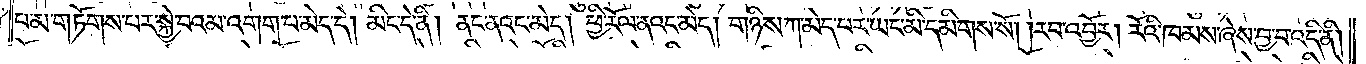པ་མ་གཏོགས་པར་སྐྱེ་བའམ་འགག་པ་མེད་དེ། མིང་དེ་ནི། ནང་ནའང་མེད། ཕྱི་རོལ་ནའང་མེད། གཉིས་ཀ་མེད་པར་ཡང་མི་དམིགས་སོ། །རབ་འབྱོར། རོའི་ཁམས་ཞེས་བྱ་བ་འདི་ནི།
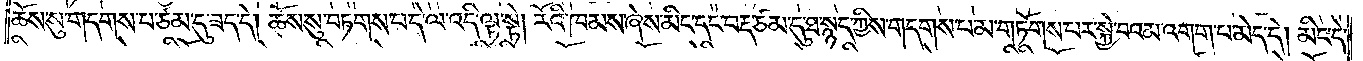ཆོས་སུ་གདགས་པ་ཙམ་དུ་ཟད་དེ། ཆོས་སུ་བཏགས་པ་དེ་ལ་འདི་ལྟ་སྟེ། རོའི་ཁམས་ཞེས་མིང་དང་བརྡ་ཙམ་དུ་ཐ་སྙད་ཀྱིས་གདགས་པ་མ་གཏོགས་པར་སྐྱེ་བའམ་འགག་པ་མེད་དེ། མིང་དེ་
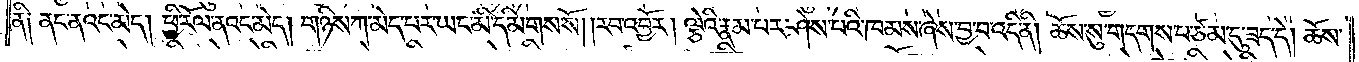ནི༑ ནང་ནའང་མེད། ཕྱི་རོལ་ནའང་མེད། གཉིས་ཀ་མེད་པར་ཡང་མི་དམིགས་སོ། །རབ་འབྱོར། ལྕེའི་རྣམ་པར་ཤེས་པའི་ཁམས་ཞེས་བྱ་བ་འདི་ནི། ཆོས་སུ་གདགས་པ་ཙམ་དུ་ཟད་དེ། ཆོས་
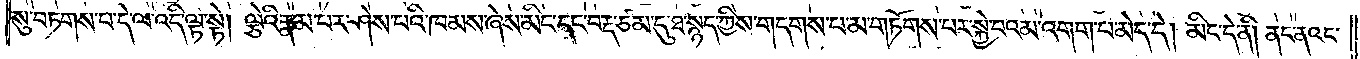སུ་བཏགས་པ་དེ་ལ་འདི་ལྟ་སྟེ། ལྕེའི་རྣམ་པར་ཤེས་པའི་ཁམས་ཞེས་མིང་དང་བརྡ་ཙམ་དུ་ཐ་སྙད་ཀྱིས་གདགས་པ་མ་གཏོགས་པར་སྐྱེ་བའམ་འགག་པ་མེད་དེ། མིང་དེ་ནི། ནང་ནའང་
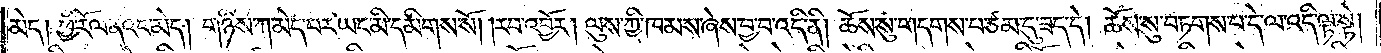མེད། ཕྱི་རོལ་ནའང་མེད། གཉིས་ཀ་མེད་པར་ཡང་མི་དམིགས་སོ། །རབ་འབྱོར། ལུས་ཀྱི་ཁམས་ཞེས་བྱ་བ་འདི་ནི། ཆོས་སུ་གདགས་པ་ཙམ་དུ་ཟད་དེ། ཆོས་སུ་བཏགས་པ་དེ་ལ་འདི་ལྟ་སྟེ།
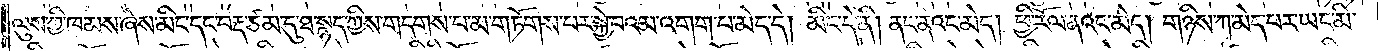ལུས་ཀྱི་ཁམས་ཞེས་མིང་དང་བརྡ་ཙམ་དུ་ཐ་སྙད་ཀྱིས་གདགས་པ་མ་གཏོགས་པར་སྐྱེ་བའམ་འགག་པ་མེད་དེ། མིང་དེ་ནི། ནང་ནའང་མེད། ཕྱི་རོལ་ནའང་མེད། གཉིས་ཀ་མེད་པར་ཡང་མི་
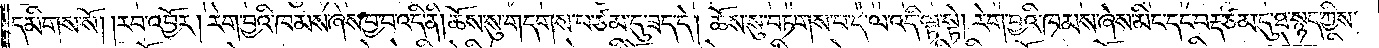དམིགས་སོ། །རབ་འབྱོར། རེག་བྱའི་ཁམས་ཞེས་བྱ་བ་འདི་ནི། ཆོས་སུ་གདགས་པ་ཙམ་དུ་ཟད་དེ། ཆོས་སུ་བཏགས་པ་དེ་ལ་འདི་ལྟ་སྟེ། རེག་བྱའི་ཁམས་ཞེས་མིང་དང་བརྡ་ཙམ་དུ་ཐ་སྙད་ཀྱིས་
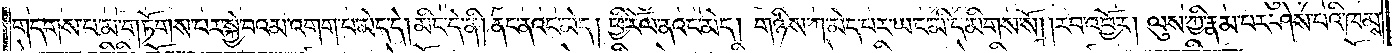གདགས་པ་མ་གཏོགས་པར་སྐྱེ་བའམ་འགག་པ་མེད་དེ། མིང་དེ་ནི། ནང་ནའང་མེད། ཕྱི་རོལ་ནའང་མེད། གཉིས་ཀ་མེད་པར་ཡང་མི་དམིགས་སོ། །རབ་འབྱོར། ལུས་ཀྱི་རྣམ་པར་ཤེས་པའི་ཁམས་
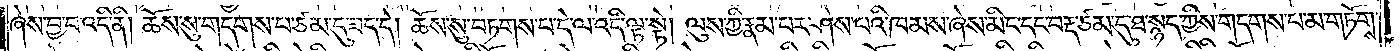ཞེས་བྱ་བ་འདི་ནི། ཆོས་སུ་གདགས་པ་ཙམ་དུ་ཟད་དེ། ཆོས་སུ་བཏགས་པ་དེ་ལ་འདི་ལྟ་སྟེ། ལུས་ཀྱི་རྣམ་པར་ཤེས་པའི་ཁམས་ཞེས་མིང་དང་བརྡ་ཙམ་དུ་ཐ་སྙད་ཀྱིས་གདགས་པ་མ་གཏོགས་
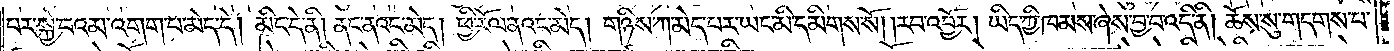པར་སྐྱེ་བའམ་འགག་པ་མེད་དེ། མིང་དེ་ནི། ནང་ནའང་མེད། ཕྱི་རོལ་ནའང་མེད། གཉིས་ཀ་མེད་པར་ཡང་མི་དམིགས་སོ། །རབ་འབྱོར། ཡིད་ཀྱི་ཁམས་ཞེས་བྱ་བ་འདི་ནི། ཆོས་སུ་གདགས་པ་
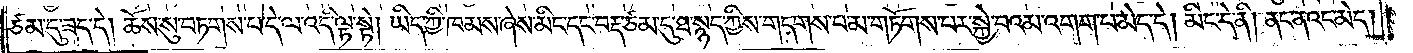ཙམ་དུ་ཟད་དེ། ཆོས་སུ་བཏགས་པ་དེ་ལ་འདི་ལྟ་སྟེ། ཡིད་ཀྱི་ཁམས་ཞེས་མིང་དང་བརྡ་ཙམ་དུ་ཐ་སྙད་ཀྱིས་གདགས་པ་མ་གཏོགས་པར་སྐྱེ་བའམ་འགག་པ་མེད་དེ། མིང་དེ་ནི། ནང་ནའང་མེད།
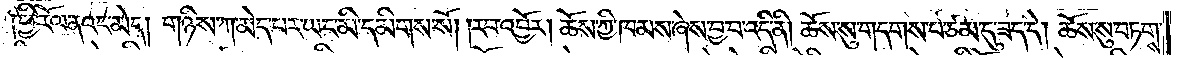ཕྱི་རོལ་ནའང་མེད། གཉིས་ཀ་མེད་པར་ཡང་མི་དམིགས་སོ། །རབ་འབྱོར། ཆོས་ཀྱི་ཁམས་ཞེས་བྱ་བ་འདི་ནི། ཆོས་སུ་གདགས་པ་ཙམ་དུ་ཟད་དེ། ཆོས་སུ་བཏགས་
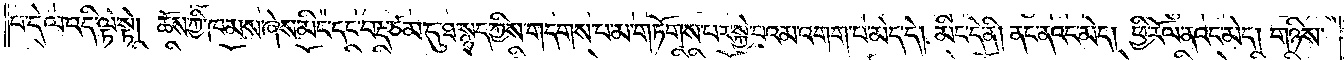པ་དེ་ལ་འདི་ལྟ་སྟེ། ཆོས་ཀྱི་ཁམས་ཞེས་མིང་དང་བརྡ་ཙམ་དུ་ཐ་སྙད་ཀྱིས་གདགས་པ་མ་གཏོགས་པར་སྐྱེ་བའམ་འགག་པ་མེད་དེ། མིང་དེ་ནི། ནང་ནའང་མེད། ཕྱི་རོལ་ནའང་མེད། གཉིས་
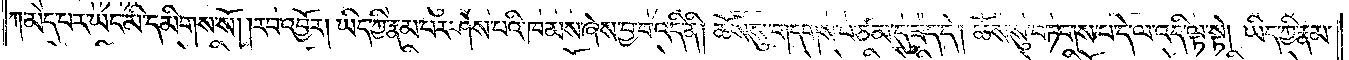ཀ་མེད་པར་ཡང་མི་དམིགས་སོ། །རབ་འབྱོར། ཡིད་ཀྱི་རྣམ་པར་ཤེས་པའི་ཁམས་ཞེས་བྱ་བ་འདི་ནི། ཆོས་སུ་གདགས་པ་ཙམ་དུ་ཟད་དེ། ཆོས་སུ་བཏགས་པ་དེ་ལ་འདི་ལྟ་སྟེ། ཡིད་ཀྱི་རྣམ་
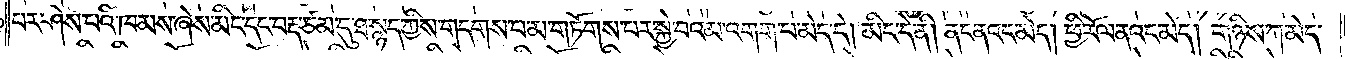པར་ཤེས་པའི་ཁམས་ཞེས་མིང་དང་བརྡ་ཙམ་དུ་ཐ་སྙད་ཀྱིས་གདགས་པ་མ་གཏོགས་པར་སྐྱེ་བའམ་འགག་པ་མེད་དེ། མིང་དེ་ནི། ནང་ནའང་མེད། ཕྱི་རོལ་ནའང་མེད། གཉིས་ཀ་མེད་
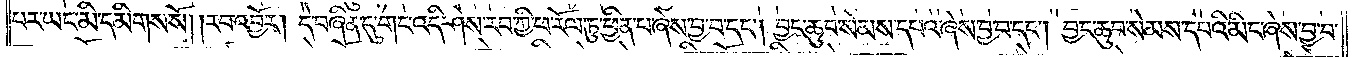པར་ཡང་མི་དམིགས་སོ། །རབ་འབྱོར། དེ་བཞིན་དུ་གང་འདི་ཤེས་རབ་ཀྱི་ཕ་རོལ་ཏུ་ཕྱིན་པ་ཞེས་བྱ་བ་དང༌། བྱང་ཆུབ་སེམས་དཔའ་ཞེས་བྱ་བ་དང༌། བྱང་ཆུབ་སེམས་དཔའི་མིང་ཞེས་བྱ་བ་
